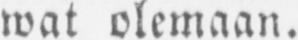wat olemaan.
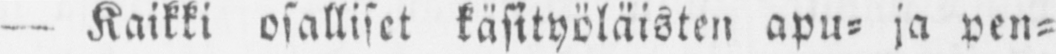— Kaikki osalliset käsityöläisten apu- ja pen-
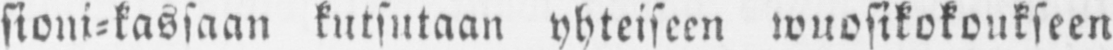sioni-kassaan kutsutaan yhteiseen wuosikokoukseen
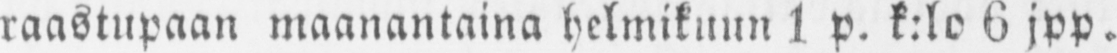raastupaan maanantaina helmikuun 1 p. k:lo 6 jpp.
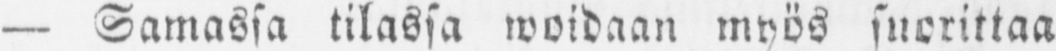— Samassa tilassa woidaan myös suorittaa
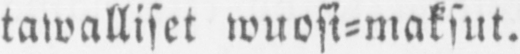tawalliset wuosi-maksut.
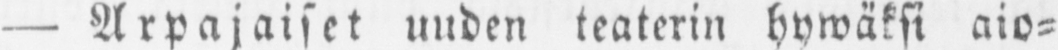— Arpajaiset uuden teaterin hywäksi aio-
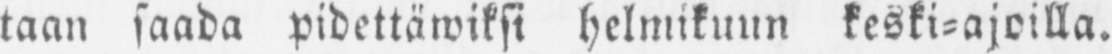taan saada pidettäwiksi helmikuun keski-ajoilla.
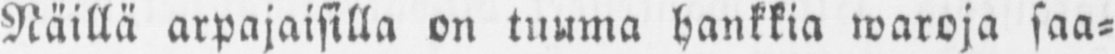Näillä arpajaisilla on tuuma hankkia waroja saa-
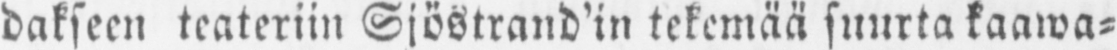dakseen teateriin Sjöstrand'in tekemää suurta kaawa-
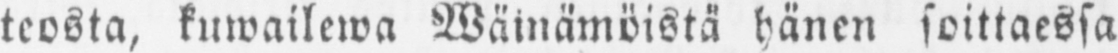teosta, kuwailewa Wäinämöistä hänen soittaessa
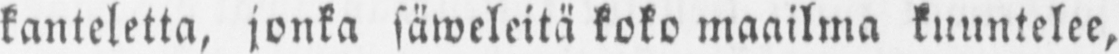kanteletta, jonka säweleitä koko maailma kuuntelee,
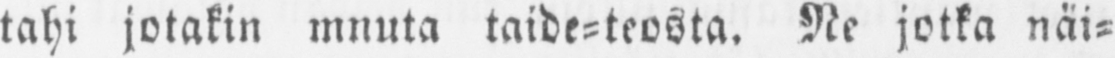tahi jotakin mnuta taide-teosta. Ne jotka näi-
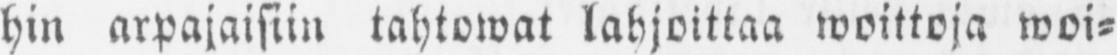hin arpajaisiin tahtowat lahjoittaa woittoja woi-
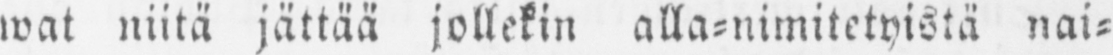wat niitä jättää jollekin alla-nimitetyistä nai-
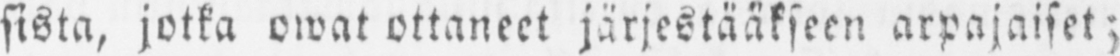sista, jotka owat ottaneet järjestääkseen arpajaiset;
